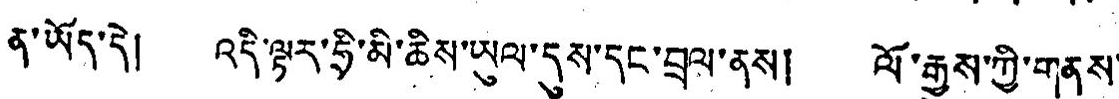ན་ཡོད་དེ། འདི་ལྟར་ཧྲི་མི་ཆིས་ཡུལ་དུས་དང་བྲལ་ནས། ལོ་རྒྱུས་ཀྱི་གནས་
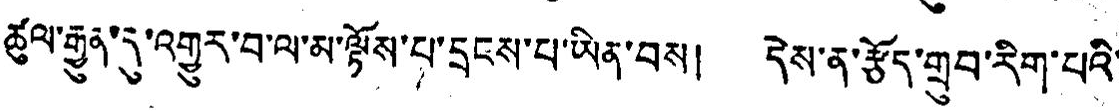ཚུལ་རྒྱུན་དུ་འགྱུར་བ་ལ་མ་ལྟོས་པ་དྲངས་པ་ཡིན་བས། དེས་ན་རྩོད་གྲུབ་རིག་པའི་
